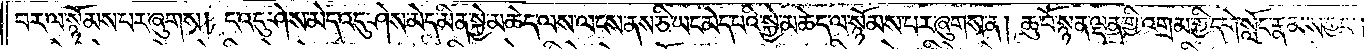བར་ལ་སྙོམས་པར་ཞུགས། ང་འདུ་ཤེས་མེད་འདུ་ཤེས་མེད་མིན་སྐྱེ་མཆེད་ལས་ལངས་ནས་ཅི་ཡང་མེད་པའི་སྐྱེ་མཆེད་ལ་སྙོམས་པར་ཞུགས་ན། ཆུ་བོ་སྙན་ལྡན་གྱི་འགྲམ་གྱི་དགེ་སློང་རྣམས་ཀྱང༌།
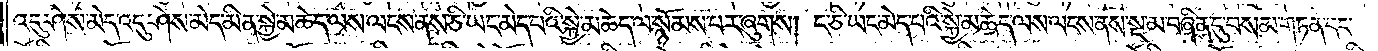འདུ་ཤེས་མེད་འདུ་ཤེས་མེད་མིན་སྐྱེ་མཆེད་ལས་ལངས་ནས་ཅི་ཡང་མེད་པའི་སྐྱེ་མཆེད་ལ་སྙོམས་པར་ཞུགས། ང་ཅི་ཡང་མེད་པའི་སྐྱེ་མཆེད་ལས་ལངས་ནས་སྔ་མ་བཞིན་དུ་བསམ་གཏན་དང་
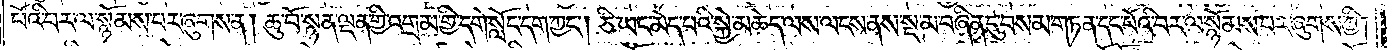པོའི་བར་ལ་སྙོམས་པར་ཞུགས་ན། ཆུ་བོ་སྙན་ལྡན་གྱི་འགྲམ་གྱི་དགེ་སློང་དག་ཀྱང༌། ཅི་ཡང་མེད་པའི་སྐྱེ་མཆེད་ལས་ལངས་ནས་སྔ་མ་བཞིན་དུ་བསམ་གཏན་དང་པོའི་བར་ལ་སྙོམས་པར་ཞུགས་ཀྱི།
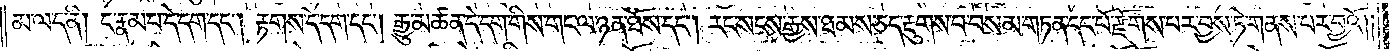མ་ལ་ད་ནི། ང་རྣམ་པ་དེ་དག་དང༌། རྟགས་དེ་དག་དང༌། རྒྱུ་མཚན་དེ་དག་གིས་གང་ལ་ཉན་ཐོས་དང༌། རང་སངས་རྒྱས་ཐམས་ཅད་རྡུགས་པ་བསམ་གཏན་དང་པོ་རྫོགས་པར་བྱས་ཏེ་གནས་པར་བྱའོ༎
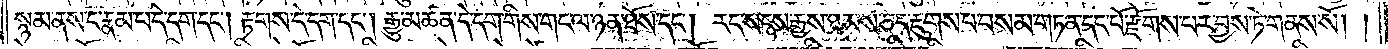སྙམ་ནས་ང་རྣམ་པ་དེ་དག་དང༌། རྟགས་དེ་དག་དང༌། རྒྱུ་མཚན་དེ་དག་གིས་གང་ལ་ཉན་ཐོས་དང༌། རང་སངས་རྒྱས་ཐམས་ཅད་རྡུགས་པ་བསམ་གཏན་དང་པོ་རྫོགས་པར་བྱས་ཏེ་གནས་སོ། །
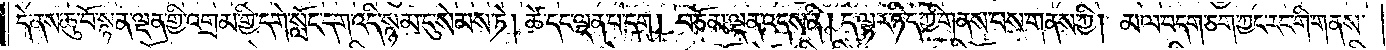དེ་ནས་ཆུ་བོ་སྙན་ལྡན་གྱི་འགྲམ་གྱི་དགེ་སློང་དག་འདི་སྙམ་དུ་སེམས་ཏེ། ཚེ་དང་ལྡན་པ་དག། བཅོམ་ལྡན་འདས་ནི། ད་ལྟར་ཉིད་ཀྱི་གནས་པས་གནས་ཀྱི། མ་ལ་བདག་ཅག་ཀྱང་རང་གི་གནས་
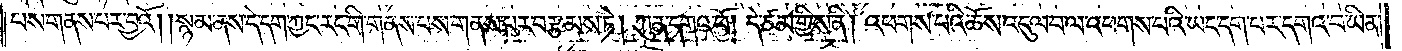པས་གནས་པར་བྱའོ། །སྙམ་ནས་དེ་དག་ཀྱང་རང་གི་གནས་པས་བརྩམས་ཏེ། ཀུན་དགའ་བོ། དེ་ཙམ་གྱིས་ནི། འཕགས་པའི་ཆོས་འདུལ་བ་ལ་འཕགས་པའི་ཡང་དག་པར་དགའ་བ་ཡིན་
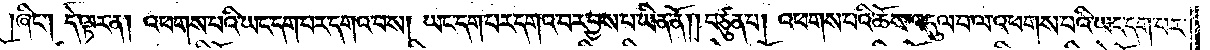ཞིང༌། དེ་ལྟར་ན། འཕགས་པའི་ཡང་དག་པར་དགའ་བས། ཡང་དག་པར་དགའ་བར་བྱས་པ་ཡིན་ནོ། །བཙུན་པ། འཕགས་པའི་ཆོས་འདུལ་བ་ལ་འཕགས་པའི་ཡང་དག་པར་
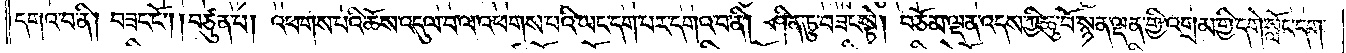དགའ་བ་ནི། བཟང་ངོ༌། །བཙུན་པ། འཕགས་པའི་ཆོས་འདུལ་བ་ལ་འཕགས་པའི་ཡང་དག་པར་དགའ་བ་ནི། ཤིན་ཏུ་བཟང་སྟེ། བཅོམ་ལྡན་འདས་ཀྱི་ཆུ་བོ་སྙན་ལྡན་གྱི་འགྲམ་གྱི་དགེ་སློང་དག་
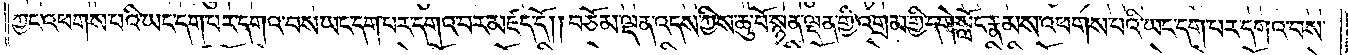ཀྱང་འཕགས་པའི་ཡང་དག་པར་དགའ་བས་ཡང་དག་པར་དགའ་བར་མཛད་དོ། །བཅོམ་ལྡན་འདས་ཀྱིས་ཆུ་བོ་སྙན་ལྡན་གྱི་འགྲམ་གྱི་དགེ་སློང་རྣམས་འཕགས་པའི་ཡང་དག་པར་དགའ་བས་
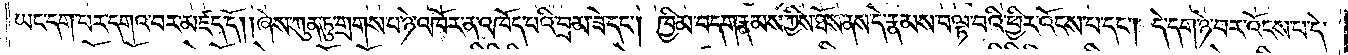ཡང་དག་པར་དགའ་བར་མཛད་དོ། །ཞེས་ཀུན་ཏུ་གྲགས་པ་ཉེ་འཁོར་ན་འཁོད་པའི་བྲམ་ཟེ་དང༌། ཁྱིམ་བདག་རྣམས་ཀྱིས་ཐོས་ནས་དེ་རྣམས་བལྟ་བའི་ཕྱིར་འོངས་པ་དང༌། དེ་དག་ཉེ་བར་འོངས་པ་དེ་
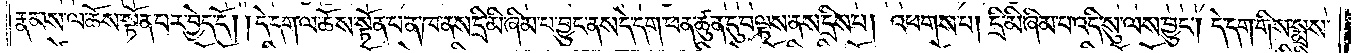རྣམས་ལ་ཆོས་སྟོན་པར་བྱེད་དོ། །དེ་དག་ལ་ཆོས་སྟོན་པ་ན་ཁ་ནས་དྲི་མི་ཞིམ་པ་བྱུང་ནས་དེ་དག་ཕན་ཚུན་དུ་བལྟས་ནས་དྲིས་པ། འཕགས་པ། དྲི་མི་ཞིམ་པ་འདི་སུ་ལས་བྱུང༌། དེ་དག་གིས་སྨྲས་
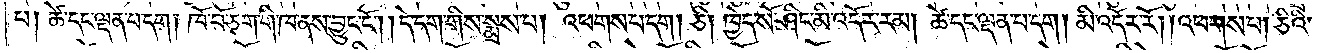པ། ཚེ་དང་ལྡན་པ་དག། ཁོ་བོ་ཅག་གི་ཁ་ནས་བྱུང་ངོ༌། །དེ་དག་གིས་སྨྲས་པ། འཕགས་པ་དག །ཅི། ཁྱེད་སོ་ཤིང་མི་འདོར་རམ། ཚེ་དང་ལྡན་པ་དག །མི་འདོར་རོ། །འཕགས་པ། ཅིའི་
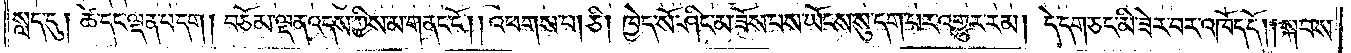སླད་དུ། ཚེ་དང་ལྡན་པ་དག། བཅོམ་ལྡན་འདས་ཀྱིས་མ་གནང་ངོ༌། །འཕགས་པ། ཅི། ཁྱེད་སོ་ཤིང་མ་ཟོས་པས་ཡོངས་སུ་དག་པར་འགྱུར་རམ། དེ་དག་ཅང་མི་ཟེར་བར་འཁོད་དོ། །སྐབས་
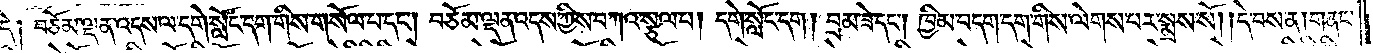དེ། བཅོམ་ལྡན་འདས་ལ་དགེ་སློང་དག་གིས་གསོལ་པ་དང༌། བཅོམ་ལྡན་འདས་ཀྱིས་བཀའ་སྩལ་པ། དགེ་སློང་དག། བྲམ་ཟེ་དང༌། ཁྱིམ་བདག་དག་གིས་ལེགས་པར་སྨྲས་སོ། །དེ་བས་ན། གནང་
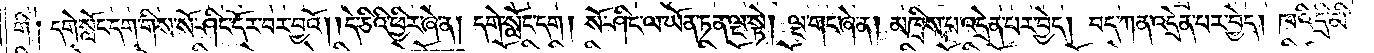གི། དགེ་སློང་དག་གིས་སོ་ཤིང་དོར་བར་བྱའོ། །དེ་ཅིའི་ཕྱིར་ཞེ་ན། དགེ་སློང་དག། སོ་ཤིང་ལ་ཡོན་ཏན་ལྔ་སྟེ། ལྔ་གང་ཞེ་ན། མཁྲིས་པ་འདྲེན་པར་བྱེད། བད་ཀན་འདྲེན་པར་བྱེད། ཁའི་དྲི་མི་
